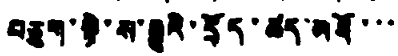བཅུག་སྟེ་ས་རྒྱུའི་དྲོད་ཚད་མཐོ་་་
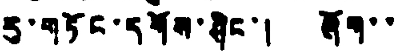རུ་གཏོང་དགོས་ཤིང་། ཞོག་་
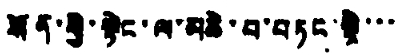སོན་གྱི་སྟེང་ལ་མཆེ་བ་བཏང་སྟེ་་་
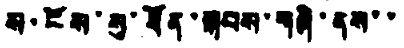ས་ངོས་སུ་ཐོན་སྐབས་གཞི་ནས་་
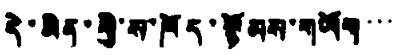དེ་མིན་གྱི་ས་ཁོད་རྙོམས་གཡོག་་་
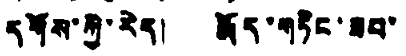དགོས་ཀྱི་རེད། རྨོད་གཏེང་ཟབ་
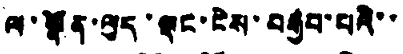ལ་སྣོན་ལུད་ལྡང་ངེས་བརྒྱབ་པའི་་
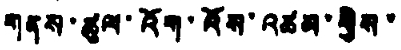གནས་ཚུལ་འོག་འོས་འཚམ་གྱིས་
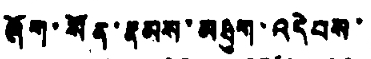ཞོག་སོན་རྣམས་མཐུག་འདེབས་
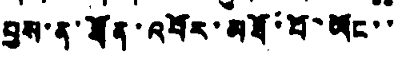བྱས་ན་ཐོན་འབོར་མཐོ་པོ་ཡོང་་
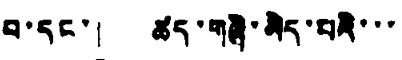བ་དང་། ཚད་གཞི་མེད་པའི་་་
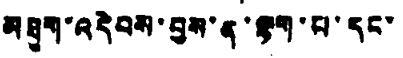མཐུག་འདེབས་བྱས་ན་ལྷག་པ་དང་
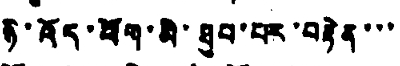ཉི་འོད་ཕོག་མི་ཐུབ་པར་བརྟེན་་་
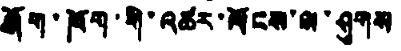ཞོག་ཁོག་གི་འཚར་ལོངས་ལ་ཤུགས
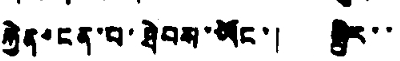རྐྱེན་ངན་པ་ཐེབས་ཡོང་། སྤྱིར་་
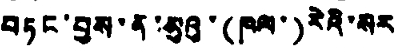བཏང་བྱས་ན་མུའུ་(ཁལ་)རེའི་སར
